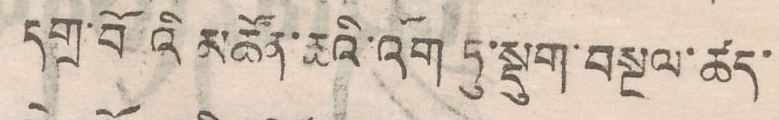དགྲ་བོའི་མཚོན་ཆའི་མཚོན་ཆའི་འོག ཏུ་སྡུག་བསྔལ་ཚད་
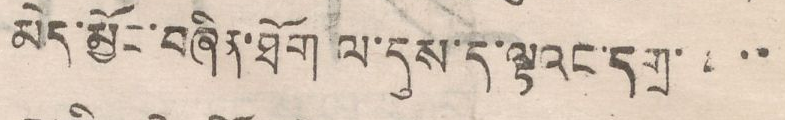མེད་མྱོང་བཞིན་ཐོག ལ་དུས་ད་ལྟའང་དགྲ་་་་
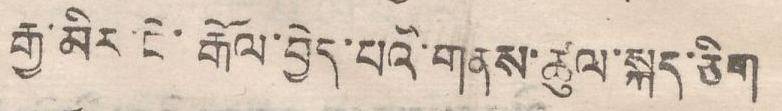རྒྱ་མིར་ངེ་རྒོལ་བྱེད་པའི་གནས་ཚུལ་སྐད་ཅིག
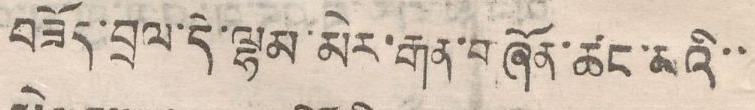བཟོད་བྲལ་དེ་ལྷམ་མེར་རྒན་བཞོན་ཚང་མའི་་
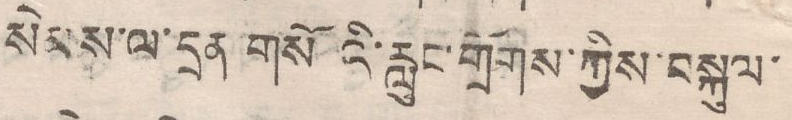སེམས་ལ་དྲན གསོ འི་རླུང་གྲོགས་ཀྱིས་བསྐུལ་
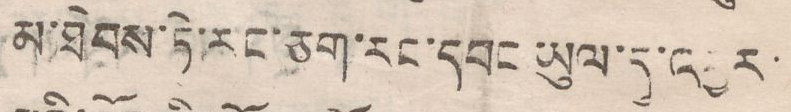མ་ཐེབས་ཏེ་རང་ཅག་རང་དབང་ཡུལ་དུ་འབྱར་
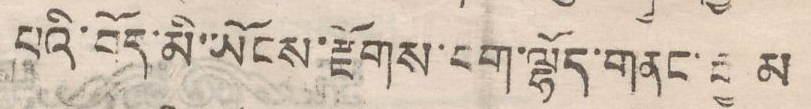པའི་བོད་མི་ཡོངས་རྫོགས་བག་ལྷོད་གནང་རྒྱ་མ
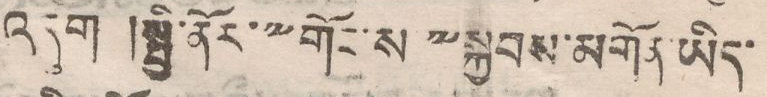འདུག །སྤྱི་ནོར་༸གོང་ས་༸སྐྱབས་མགོན་ཡིད་
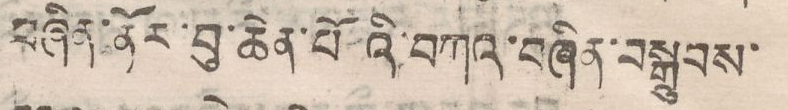བཞིན་ནོར་བུ་ཆེན་པོ འི་བཀའ་བཞིན་བསྒྲུབས་
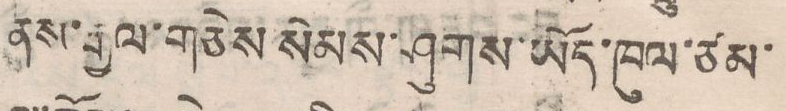ནས་རྒྱལ་གཅེས་སེམས་ཤུགས་ཡོད་ཁལ་ཙམ་
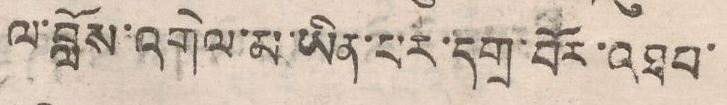ལ་བློས་འགེལ་མ་ཡིན་པར་དགྲ་བོར་འཐབ་
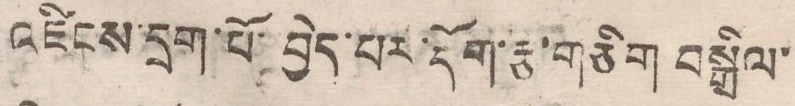འཛིངས་དྲག་པོ་བྱེད་པར་དོག་རྩ་གཅིག བསྒྲིལ་
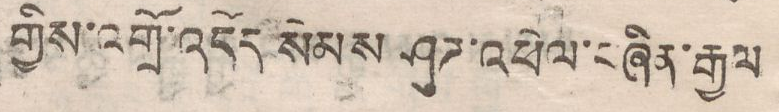གྱིས་འགྲོ་འདོདོ སེམས ཤུཌ་འཕེལ་བཞིན་རྒྱལ
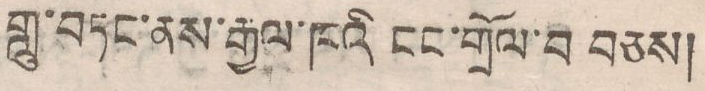གླུ་བཏང་ནས་རྒྱལ་ཁའི ངང་གྲོལ་བ བཅས།
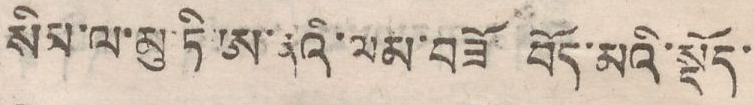སིམ་ལ་མུ་ཏི ཨ་ནའི་ལམ་བཟོ བོད་མའི་སྡོད་
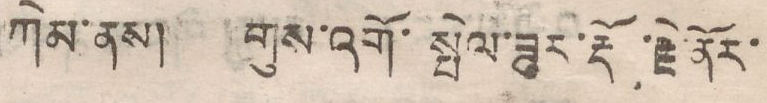ཀེམ་ནས། གུས་འགོ་སྤེལ་ཟུར་རྡོ་རྗེ་ནོར་
